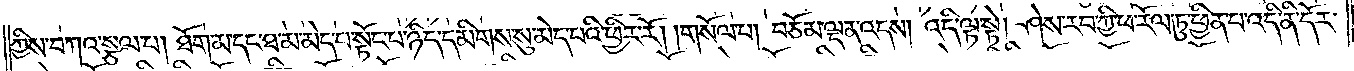ཀྱིས་བཀའ་སྩལ་པ། ཐོག་མ་དང་ཐ་མ་མེད་པ་སྟོང་པ་ཉིད་དམིགས་སུ་མེད་པའི་ཕྱིར་རོ། །གསོལ་པ། བཅོམ་ལྡན་འདས། འདི་ལྟ་སྟེ། ཤེས་རབ་ཀྱི་ཕ་རོལ་ཏུ་ཕྱིན་པ་འདི་ནི་དོར་
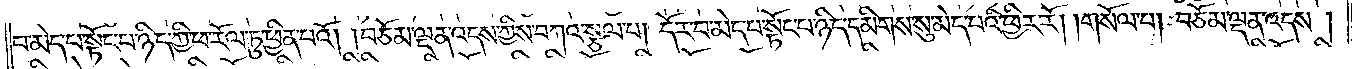བ་མེད་པ་སྟོང་པ་ཉིད་ཀྱི་ཕ་རོལ་ཏུ་ཕྱིན་པའོ། །བཅོམ་ལྡན་འདས་ཀྱིས་བཀའ་སྩལ་པ། དོར་བ་མེད་པ་སྟོང་པ་ཉིད་དམིགས་སུ་མེད་པའི་ཕྱིར་རོ། །གསོལ་པ། བཅོམ་ལྡན་འདས།
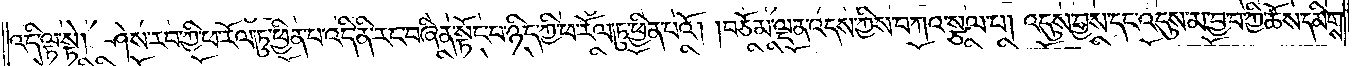འདི་ལྟ་སྟེ། ཤེས་རབ་ཀྱི་ཕ་རོལ་ཏུ་ཕྱིན་པ་འདི་ནི་རང་བཞིན་སྟོང་པ་ཉིད་ཀྱི་ཕ་རོལ་ཏུ་ཕྱིན་པའོ། །བཅོམ་ལྡན་འདས་ཀྱིས་བཀའ་སྩལ་པ། འདུས་བྱས་དང་འདུས་མ་བྱས་ཀྱི་ཆོས་དམིགས་
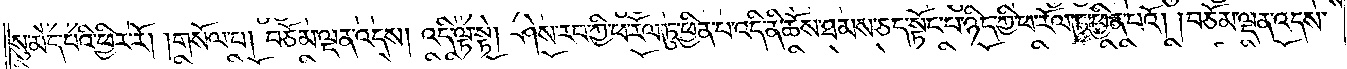སུ་མེད་པའི་ཕྱིར་རོ། །གསོལ་པ། བཅོམ་ལྡན་འདས། འདི་ལྟ་སྟེ། ཤེས་རབ་ཀྱི་ཕ་རོལ་ཏུ་ཕྱིན་པ་འདི་ནི་ཆོས་ཐམས་ཅད་སྟོང་པ་ཉིད་ཀྱི་ཕ་རོལ་ཏུ་ཕྱིན་པའོ། །བཅོམ་ལྡན་འདས་
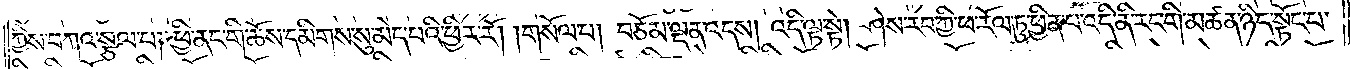ཀྱིས་བཀའ་སྩལ་པ། ཕྱི་ནང་གི་ཆོས་དམིགས་སུ་མེད་པའི་ཕྱིར་རོ། །གསོལ་པ། བཅོམ་ལྡན་འདས། འདི་ལྟ་སྟེ། ཤེས་རབ་ཀྱི་ཕ་རོལ་ཏུ་ཕྱིན་པ་འདི་ནི་རང་གི་མཚན་ཉིད་སྟོང་པ་
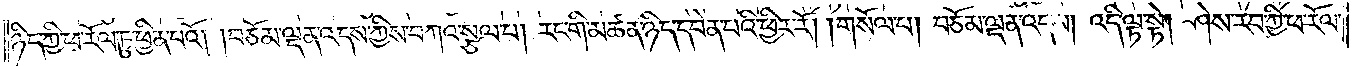ཉིད་ཀྱི་ཕ་རོལ་ཏུ་ཕྱིན་པའོ། །བཅོམ་ལྡན་འདས་ཀྱིས་བཀའ་སྩལ་པ། རང་གི་མཚན་ཉིད་དབེན་པའི་ཕྱིར་རོ། །གསོལ་པ། བཅོམ་ལྡན་འདས། འདི་ལྟ་སྟེ། ཤེས་རབ་ཀྱི་ཕ་རོལ་
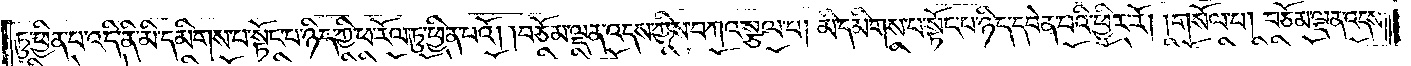ཏུ་ཕྱིན་པ་འདི་ནི་མི་དམིགས་པ་སྟོང་པ་ཉིད་ཀྱི་ཕ་རོལ་ཏུ་ཕྱིན་པའོ། །བཅོམ་ལྡན་འདས་ཀྱིས་བཀའ་སྩལ་པ། མི་དམིགས་པ་སྟོང་པ་ཉིད་དབེན་པའི་ཕྱིར་རོ། །གསོལ་པ། བཅོམ་ལྡན་འདས།
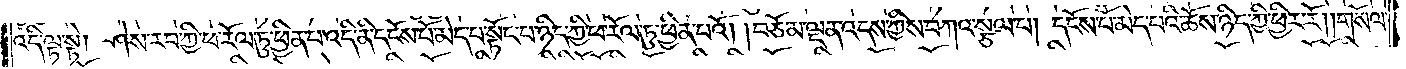འདི་ལྟ་སྟེ། ཤེས་རབ་ཀྱི་ཕ་རོལ་ཏུ་ཕྱིན་པ་འདི་ནི་དངོས་པོ་མེད་པ་སྟོང་པ་ཉིད་ཀྱི་ཕ་རོལ་ཏུ་ཕྱིན་པའོ། །བཅོམ་ལྡན་འདས་ཀྱིས་བཀའ་སྩལ་པ། དངོས་པོ་མེད་པའི་ཆོས་ཉིད་ཀྱི་ཕྱིར་རོ། །གསོལ་
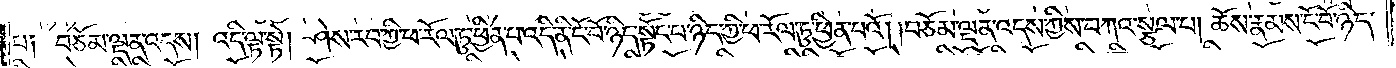པ༑ བཅོམ་ལྡན་འདས། འདི་ལྟ་སྟེ། ཤེས་རབ་ཀྱི་ཕ་རོལ་ཏུ་ཕྱིན་པ་འདི་ནི་ངོ་བོ་ཉིད་སྟོང་པ་ཉིད་ཀྱི་ཕ་རོལ་ཏུ་ཕྱིན་པའོ། །བཅོམ་ལྡན་འདས་ཀྱིས་བཀའ་སྩལ་པ། ཆོས་རྣམས་ངོ་བོ་ཉིད་
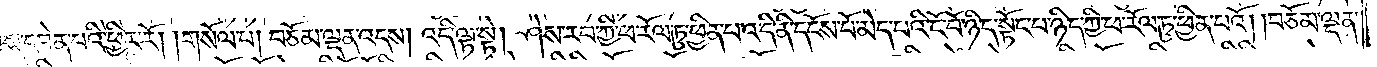ཀྱིས་དབེན་པའི་ཕྱིར་རོ། །གསོལ་པ། བཅོམ་ལྡན་འདས། འདི་ལྟ་སྟེ། ཤེས་རབ་ཀྱི་ཕ་རོལ་ཏུ་ཕྱིན་པ་འདི་ནི་དངོས་པོ་མེད་པའི་ངོ་བོ་ཉིད་སྟོང་པ་ཉིད་ཀྱི་ཕ་རོལ་ཏུ་ཕྱིན་པའོ། །བཅོམ་ལྡན་
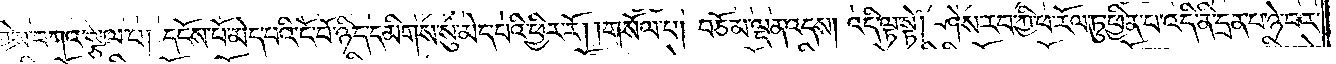འདས་ཀྱིས་བཀའ་སྩལ་པ། དངོས་པོ་མེད་པའི་ངོ་བོ་ཉིད་དམིགས་སུ་མེད་པའི་ཕྱིར་རོ། །གསོལ་པ། བཅོམ་ལྡན་འདས། འདི་ལྟ་སྟེ། ཤེས་རབ་ཀྱི་ཕ་རོལ་ཏུ་ཕྱིན་པ་འདི་ནི་དྲན་པ་ཉེ་བར་
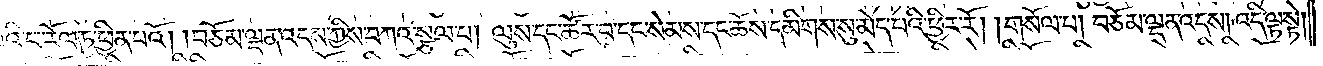པའི་ཕ་རོལ་ཏུ་ཕྱིན་པའོ། །བཅོམ་ལྡན་འདས་ཀྱིས་བཀའ་སྩལ་པ། ལུས་དང་ཚོར་བ་དང་སེམས་དང་ཆོས་དམིགས་སུ་མེད་པའི་ཕྱིར་རོ། །གསོལ་པ། བཅོམ་ལྡན་འདས། འདི་ལྟ་སྟེ།
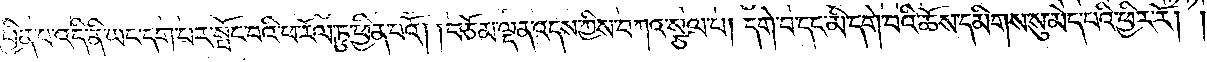ཕྱིན་པ་འདི་ནི་ཡང་དག་པར་སྤོང་བའི་ཕ་རོལ་ཏུ་ཕྱིན་པའོ། །བཅོམ་ལྡན་འདས་ཀྱིས་བཀའ་སྩལ་པ། དགེ་བ་དང་མི་དགེ་བའི་ཆོས་དམིགས་སུ་མེད་པའི་ཕྱིར་རོ། །
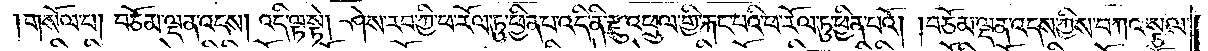གསོལ་པ། བཅོམ་ལྡན་འདས། འདི་ལྟ་སྟེ། ཤེས་རབ་ཀྱི་ཕ་རོལ་ཏུ་ཕྱིན་པ་འདི་ནི་རྫུ་འཕྲུལ་གྱི་རྐང་པའི་ཕ་རོལ་ཏུ་ཕྱིན་པའོ། །བཅོམ་ལྡན་འདས་ཀྱིས་བཀའ་སྩལ་
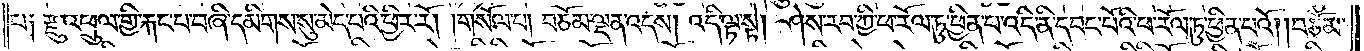པ༑ རྫུ་འཕྲུལ་གྱི་རྐང་པ་བཞི་དམིགས་སུ་མེད་པའི་ཕྱིར་རོ། །གསོལ་པ། བཅོམ་ལྡན་འདས། འདི་ལྟ་སྟེ། ཤེས་རབ་ཀྱི་ཕ་རོལ་ཏུ་ཕྱིན་པ་འདི་ནི་དབང་པོའི་ཕ་རོལ་ཏུ་ཕྱིན་པའོ། །བཅོམ་
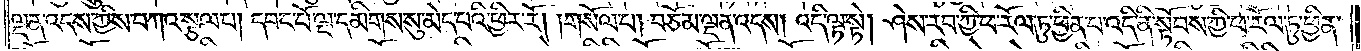ལྡན་འདས་ཀྱིས་བཀའ་སྩལ་པ། དབང་པོ་ལྔ་དམིགས་སུ་མེད་པའི་ཕྱིར་རོ། །གསོལ་པ། བཅོམ་ལྡན་འདས། འདི་ལྟ་སྟེ། ཤེས་རབ་ཀྱི་ཕ་རོལ་ཏུ་ཕྱིན་པ་འདི་ནི་སྟོབས་ཀྱི་ཕ་རོལ་ཏུ་ཕྱིན་
